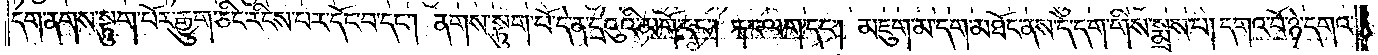དག་ནགས་སྟུག་པོར་རྒྱུག་ཅིང་རིངས་པར་དོང་བ་དང༌། ནགས་སྟུག་པོ་དེ་ན་དྲེའུའི་མགོ་དང༌། རྐང་ལག་དང༌། མཇུག་མ་དག་མཐོང་ནས་དེ་དག་གིས་སྨྲས་པ། དགའ་བོ་ཉེ་དགའ་
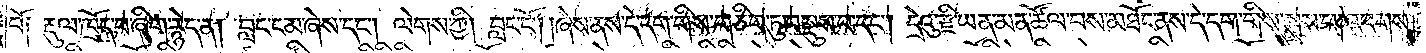བོ༑ རྡུལ་ཁྲོད་པ་ཞིག་རྙེད་ན། བླང་ངམ་ཞེས་དང༌། ལེགས་ཀྱི། བླང་ངོ༌། །ཞེས་ནས་དེ་དག་གིས་གཅིག་ཏུ་བསྡུས་པ་དང༌། དྲེའུ་རྫི་ཡན་མན་ཚོལ་བས་མཐོང་ནས་དེ་དག་གིས་སྨྲས་པ། འཕགས་
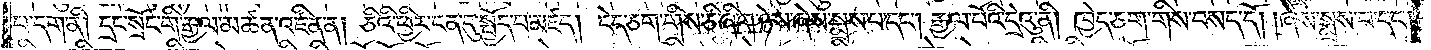པ་དག་ནི། དྲང་སྲོང་གི་རྒྱལ་མཚན་འཛིན་ན། ཅིའི་ཕྱིར་ངན་དུ་སྤྱོད་པ་མཛད། ངེད་ཅག་གིས་ཅི་ཞིག་ཉེས་ཞེས་སྨྲས་པ་དང༌། རྒྱལ་པོའི་དྲེའུ་ནི། ཁྱེད་ཅག་གིས་བསད་དོ། །ཞེས་སྨྲས་པ་དང༌།
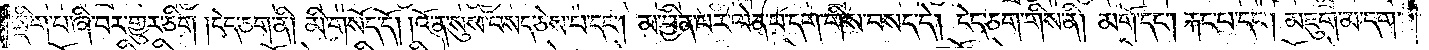སྡིག་པ་ཞི་བར་གྱུར་ཅིག །ངེད་ཅག་ནི། མི་གསོད་དོ། །འོ་ན་སུས་བསད་ཅེས་པ་དང༌། མ་བྱིན་པར་ལེན་པ་དག་གིས་བསད་དེ། ངེད་ཅག་གིས་ནི། མགོ་དང༌། རྐང་པ་དང༌། མཇུག་མ་དག་
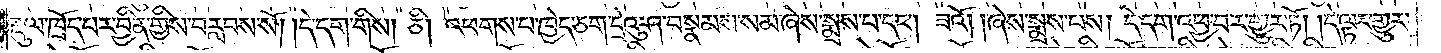རྡུལ་ཁྲོད་པར་བྱིན་གྱིས་བརླབས་སོ། །དེ་དག་གིས། ཅི། འཕགས་པ་ཁྱེད་ཅག་དྲེའུ་ཤ་བསྣམས་སམ་ཞེས་སྨྲས་པ་དང༌། ཟའོ། །ཞེས་སྨྲས་པས། དེ་དག་འཕྱ་བར་གྱུར་ཏོ། །དེ་ལྟར་གྱུར་
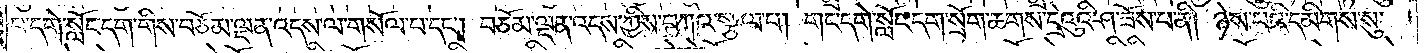པ་དགེ་སློང་དག་གིས་བཅོམ་ལྡན་འདས་ལ་གསོལ་པ་དང༌། བཅོམ་ལྡན་འདས་ཀྱིས་བཀའ་སྩལ་པ། གང་དགེ་སློང་དག་སྲོག་ཆགས་དྲེའུའི་ཤ་ཟོས་པ་ནི། ཉེས་པའི་དམིགས་སུ་
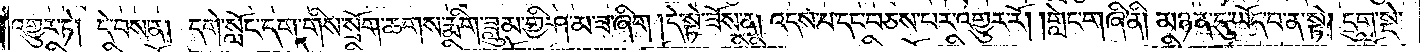འགྱུར་ཏེ། དེ་བས་ན། དགེ་སློང་དག་གིས་སྲོག་ཆགས་རྨིག་ཟླུམ་གྱི་ཤ་མ་ཟ་ཞིག །དེ་སྟེ་ཟོས་ན། འདས་པ་དང་བཅས་པར་འགྱུར་རོ། །གླེང་གཞི་ནི། མཉན་དུ་ཡོད་པ་ན་སྟེ། དྲུག་སྡེ་
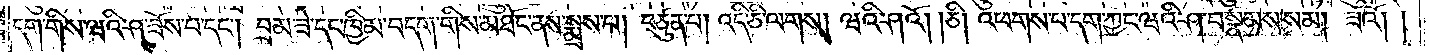དག་གིས་ཝའི་ཤ་ཟོས་པ་དང༌། བྲམ་ཟེ་དང་ཁྱིམ་བདག་གིས་མཐོང་ནས་སྨྲས་པ། བཙུན་པ། འདི་ཅི་ལགས། ཝའི་ཤའོ། །ཅི། འཕགས་པ་དག་ཀྱང་ཝའི་ཤ་བསྣམས་སམ། ཟའོ། །
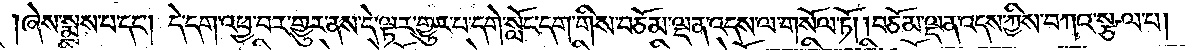ཞེས་སྨྲས་པ་དང༌། དེ་དག་འཕྱ་བར་གྱུར་ནས་དེ་ལྟར་གྱུར་པ་དགེ་སློང་དག་གིས་བཅོམ་ལྡན་འདས་ལ་གསོལ་ཏོ། །བཅོམ་ལྡན་འདས་ཀྱིས་བཀའ་སྩལ་པ།
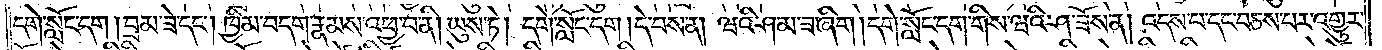དགེ་སློང་དག །བྲམ་ཟེ་དང༌། ཁྱིམ་བདག་རྣམས་འཕྱ་བ་ནི། ཡུས་ཏེ། དགེ་སློང་དག །དེ་བས་ན། ཝའི་ཤ་མ་ཟ་ཞིག །དགེ་སློང་དག་གིས་ཝའི་ཤ་ཟོས་ན། འདས་པ་དང་བཅས་པར་འགྱུར་
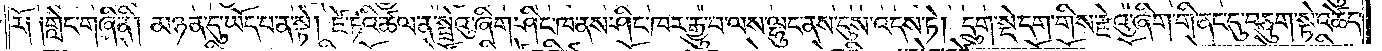རོ༑ ༑གླེང་གཞི་ནི། མཉན་དུ་ཡོད་པ་ན་སྟེ། ཛེ་ཏའི་ཚལ་ན་སྤྲེའུ་ཞིག་ཤིང་ཁ་ནས་ཤིང་ཁར་རྒྱུ་བ་ལས་ལྷུང་ནས་དུས་འདས་ཏེ། དྲུག་སྡེ་དག་གིས་རྫེའུ་ཞིག་གི་ནང་དུ་བཅུག་སྟེ་འཚེད་
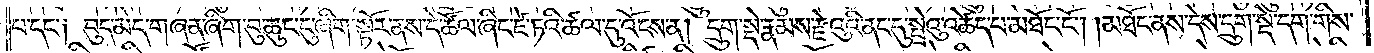པ་དང་༑ བུད་མེད་གཞན་ཞིག་བུ་ཆུང་ངུ་ཞིག་སྟོར་ནས་དེ་ཚོལ་ཞིང་ཛེ་ཏའི་ཚལ་དུ་འོངས་ན། དྲུག་སྡེ་རྣམས་རྫེའུའི་ནང་དུ་སྤྲེའུ་འཚེད་པ་མཐོང་ངོ༌། །མཐོང་ནས་དེས་དྲུག་སྡེ་དག་གིས་
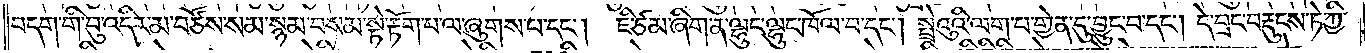བདག་གི་བུ་འདིར་མ་བཙོས་སམ་སྙམ་བསམ་སྟེ་རྟོག་པ་ལ་ཞུགས་པ་དང༌། ཇི་ཙམ་ཞིག་ན་ལྷུང་ལྷུང་ཁོལ་བ་དང༌། སྤྲེའུའི་ལག་པ་གྱེན་དུ་བྱུང་བ་དང༌། དེ་བྲང་བརྡུངས་ཏེ་ཀྱི་
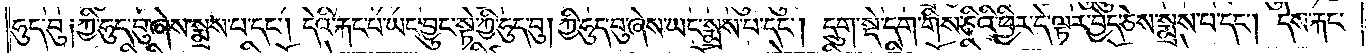ཧུད་བུ༑ ཀྱི་ཧུད་བུ་ཞེས་སྨྲས་པ་དང༌། དེའི་རྐང་པ་ཡང་བྱུང་སྟེ་ཀྱི་ཧུད་བུ། ཀྱི་ཧུད་བུ་ཞེས་ཡང་སྨྲས་པ་དང༌། དྲུག་སྡེ་དག་གིས་ཅིའི་ཕྱིར་དེ་ལྟར་བྱེད་ཅེས་སྨྲས་པ་དང༌། དེས་རྐང་
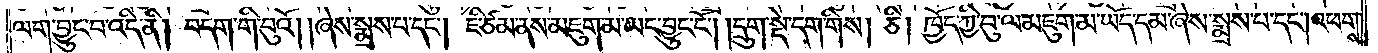ལག་བྱུང་བ་འདི་ནི། བདག་གི་བུའོ། །ཞེས་སྨྲས་པ་དང༌། ཇི་ཙམ་ནས་མཇུག་མ་ཡང་བྱུང་ངོ༌། །དྲུག་སྡེ་དག་གིས། ཅི། ཁྱོད་ཀྱི་བུ་ལ་མཇུག་མ་ཡོད་དམ་ཞེས་སྨྲས་པ་དང༌། འཕགས་
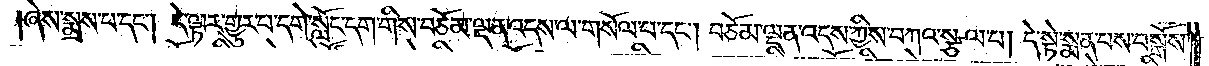ཞེས་སྨྲས་པ་དང༌། དེ་ལྟར་གྱུར་པ་དགེ་སློང་དག་གིས་བཅོམ་ལྡན་འདས་ལ་གསོལ་པ་དང༌། བཅོམ་ལྡན་འདས་ཀྱིས་བཀའ་སྩལ་པ། དེ་སྟེ་སྨན་པས་བསྒོས་
